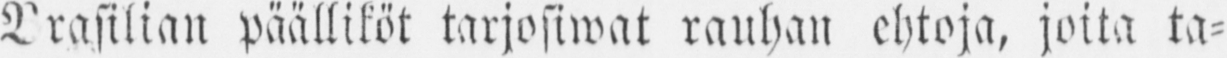Brasilian päälliköt tarjosiwat rauhan ehtoja, joita ta-
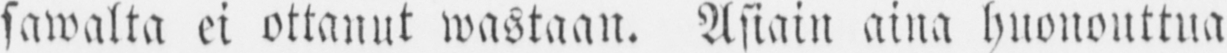sawalta ei ottanut wastaan. Asiain aina huononttua
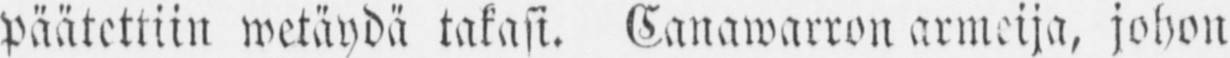päätettiin wetäydä takasi. Canawarron armeija, johon
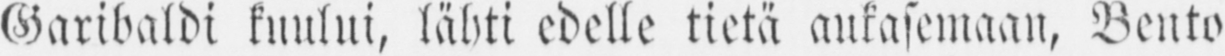Garibaldi kuului, lähti edelle tietä ankasemaan, Bento
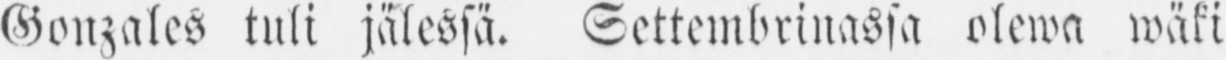Gonzales tuli jälessä. Settembrinassa olewa wäki
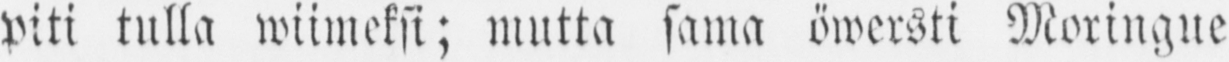piti tulla wiimeksi; mutta sama öwersti Moringne
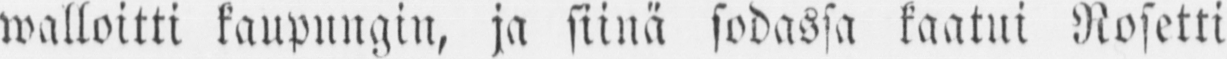walloitti kaupungin, ja siinä sodassa kaatui Rosetti
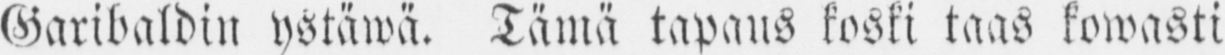Garibaldin ystäwä. Tämä tapaus koski taas kowasti
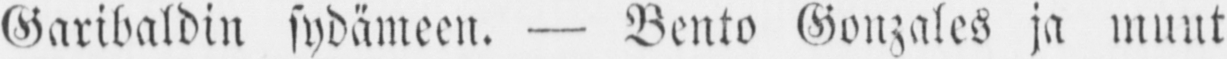Garibaldin sydämeen. — Bento Gonzales ja muut
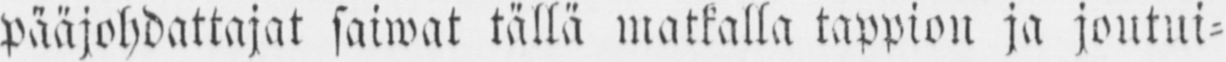pääjohdattajat saiwat tällä matkalla tappion ja joutui-
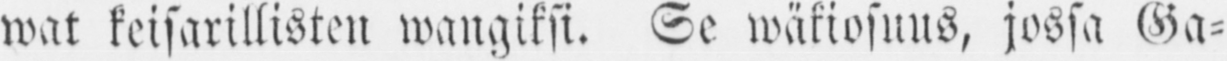wat keisarillisten wangiksi. Se wäkiosuus, jossa Ga-
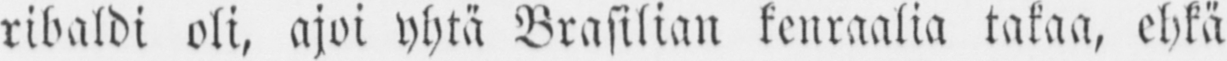ribaldi oli, ajoi yhtä Brasilian kenraalia takaa, ehkä
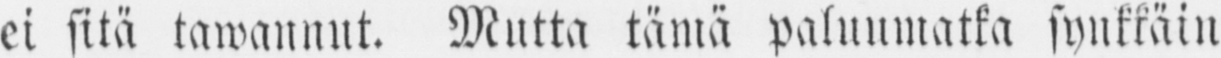ei sitä tawannut. Mutta tämä paluumatka synkkäin
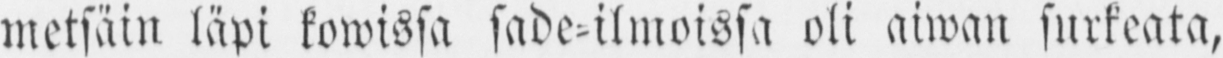metsäin läpi komissa sade-ilmoissa oli aiwan surkeata,
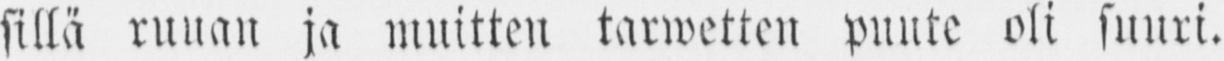sillä ruuan ja muitten tarwetten puute oli suuri.
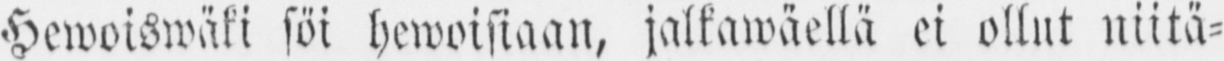Hewoiswäki söi hewoisiaan, jalkawäellä ei ollut niitä-
